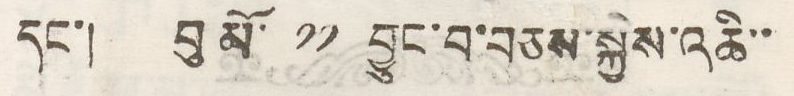དང་། བུ མོ་ ༡༡ བྱུང་བ་བཅས་སྐྱེས་འཆི་་
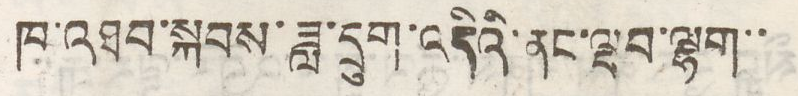ཁ་འཐབ་སྐབས་ཟླ་དྲུག་འདིའི་ནང་ལྡབ་ལྷག་་
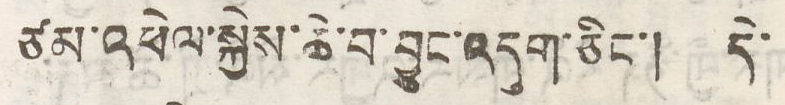ཙམ་འཕེལ་སྐྱེས་ཆེ་བ་བྱུང་འདུག་ཅིང་། དེ་
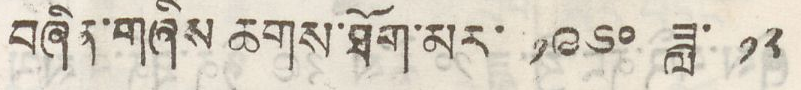བཞིན་གཞིས ཆགས་ཐོག་མར་ ༡༩༦༠ ཟླ་ ༡༢
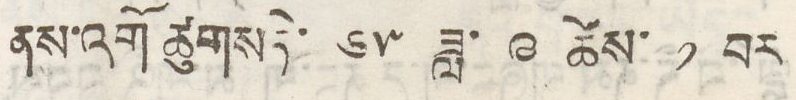ནས་འགོ ཚུགས ཏེ་ ༦༥ ཟླ་ ༩ ཚེས་ ༡ བར
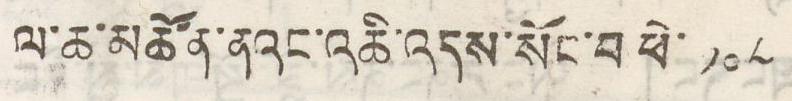ལ་ཆ་མཚོན་ནའང་འཆི་འདས་སོང་བ ཕེ་ ༡༠༨
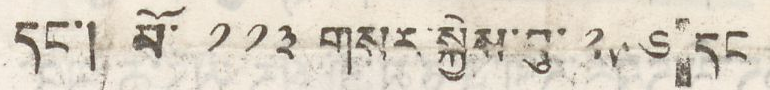དང་། མོ ༡༡༣ གསར་སྐྱེས་བུ་ ༢༥༦ དང
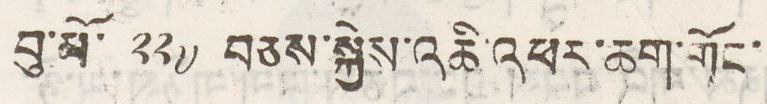བུ་མོ་ ༢༢༧ བཅས་སྐྱེས་འཆི་འཕར་ཆག་གོང་
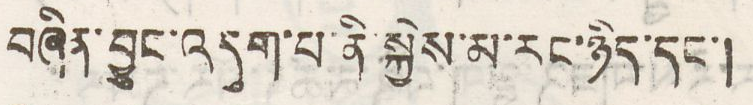བཞིན་བྱུང་འདུག་པ་ནི་སྐྱེས་མ་རང་ཉིད་དང་།
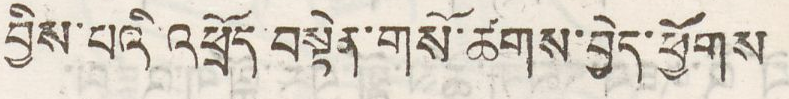བྱིས་པའི་འཕྲོད་བསྟེན་གསོ་ཚགས་བྱེད་ཕྱོགས
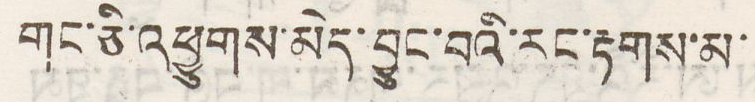གང་ཅི་འཕྱུགས་མེད་བྱུང་བའི་རང་རྟགས་མ་
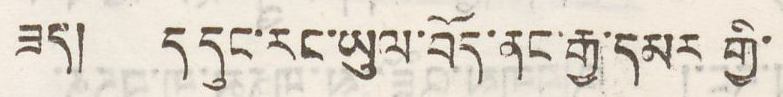ཟད། ད དུང་རང་ཡུལ་བོད་ནང་རྒྱ་དམར གྱི་
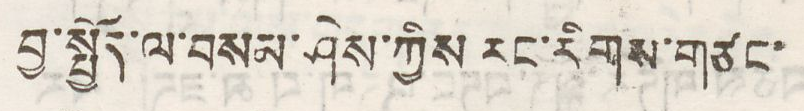བྱ་སྤྱོད་ལ་བསམ་ཤེས་ཀྱིས རང་རིགས་གཙང་
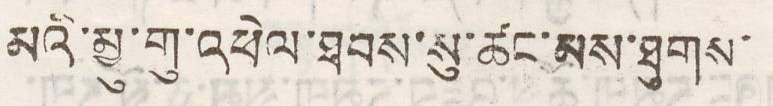མའི་མྱུ་གུ་འཕེལ་ཐབས་སུ་ཚང་མས་ཐུགས་
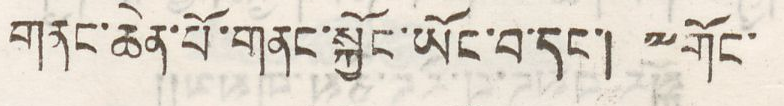གནང་ཆེན་པོ་གནང་སྐྱོང་ཡོང་བ་དང་། ༸གོང་
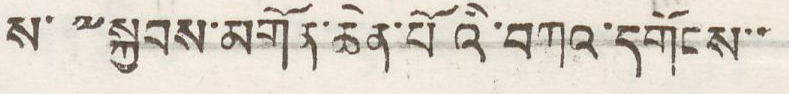ས་༸སྐྱབས་མགོན་ཆེན་པོའི་བཀའ་དགོངས་་
